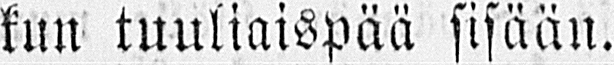kun tuuliaispää sisään.
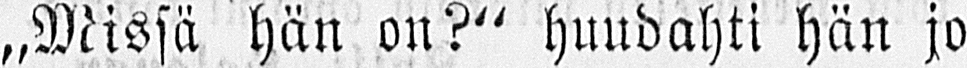„Missä hän on?" huudahti hän jo
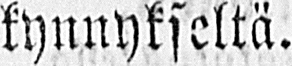kynnykseltä.
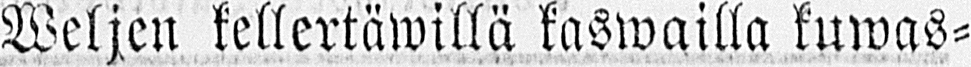Weljen kellertäwillä kaswailla kuwas-
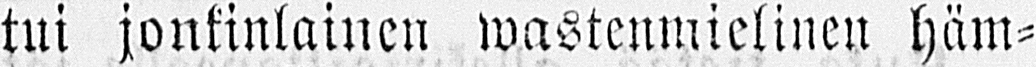tui jonkinlainen wastenmielinen häm-
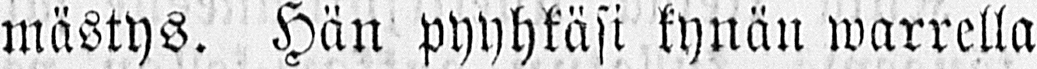mästys. Hän pyyhkäsi kynän warrella
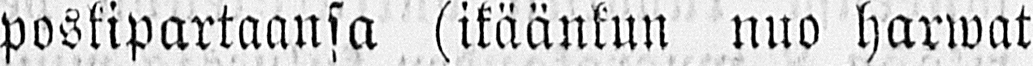poskipartaansa (ikäänkun nuo harwat
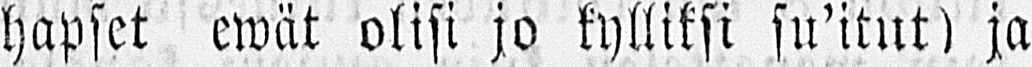hapset ewät olisi jo kylliksi su'itut) ja
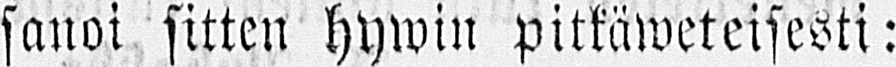sanoi sitten hywin pitkäweteisesti:
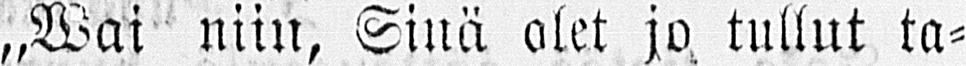„Wai niin, Sinä olet jo tullut ta-
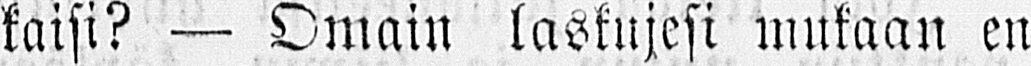kaisi? — Omain laskujesi mukaan en
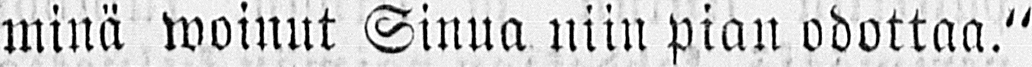minä woinut Sinua niin pian odottaa."
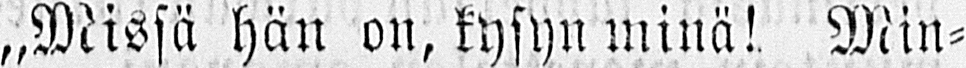„Missä hän on, kysyn minät Min-
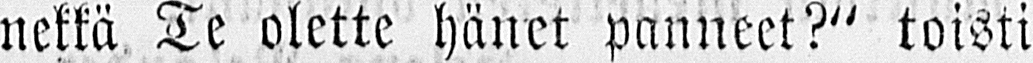nekkä Te olette hänet panneet?" toisti
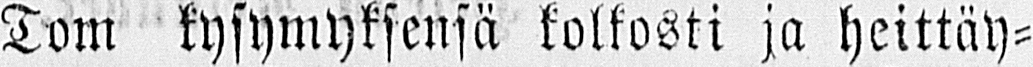Tom kysymyksensä kolkosti ja heittäy-
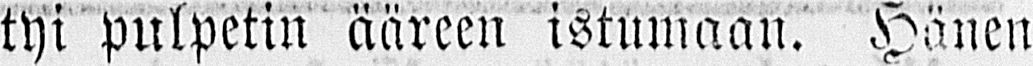tyi pulpetin ääreen istumaan. Hänen
